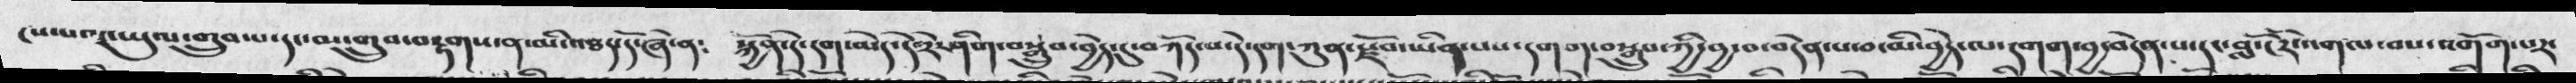ངས་པའང་ཡུལ་གྲུབ་པ་དང་མ་གྲུབ་བརྟགས་ན་མི་འཐད་དོ་ཞེ་ན༴  སྐྱོན་དེ་དག་མེད་དེ་སྟེ་ཤིག་བསྒྲུབ་བྱེད་དུ་བཀོད་པ་དེ་དག་ཀུན་རྫོབ་ཡིན་པས་དགག་བསྒྲུབ་ཀྱི་བྱ་བ་བདེན་པ་བ་མི་བྱེད་ལ་དགག་བྱ་བདེན་པ་དང་བློ་ངོར་འགལ་བས་འགོག་པར་
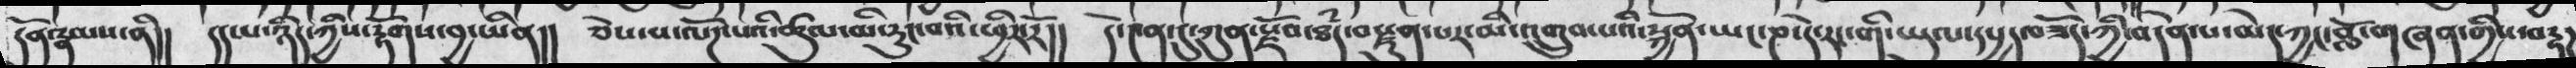དོན་རྣམས་ནི།།  དད་པ་ཉིད་ཀྱིས་རྟོགས་བྱ་ཡིན།།  ཅེས་པ་ལོཌ་པའི་ཚུལ་མི་རུང་བའི་ཕྱིར་རོ།།  དེ་༤ན་དུ་ཀུམ་རྫོབ་ཐཾད་བརྫུན་པར་མི་འགྲུབ་པའི་སྐྱོན་ཡང་ཎ་དེ་རང་གི་ཡུལ་དཔྱད་བཟོད་ཀྱི་བདེན་པ་མེད་ཀྱང་བློ་གཞན་གྱིས་བརྟཌ
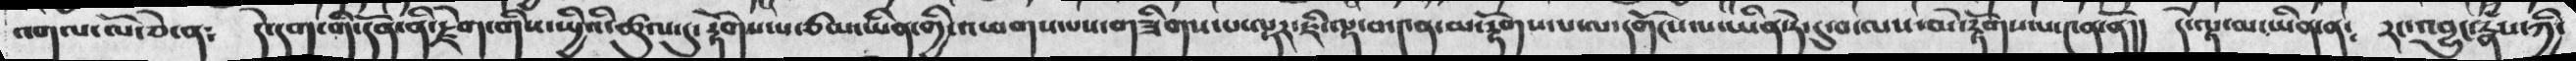འགལ་ལོ་ཅེ་ན༴  དེ་དག་གི་དོན་ནི་རྗོག་གིས་སྤྱིའི་ཚུལ་དུ་རྟོགས་པ་ཙམ་ཡིན་གྱི་འཕགས་པས་གཟིགས་པ་ལྟར་ཇི་ལྟ་བ་༤ན་མ་རྟོགས་པ་ལ་དགོངས་པ་ཡིན་དེ་དུ་བ་ལས་མེ་རྟོགས་པ་༤ན་ནོ།།  དེ་ལྟ་བ་མ་ཡིན་ན༴  རང་འབྱུང་རྣཾས་ཀྱི་
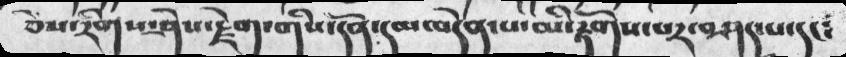ཅེས་རིགས་ཤེས་རྗེག་གིས་དོན་དམ་བདེན་པ་མི་རྟོགས་པར་བཤད་པ་དང༴
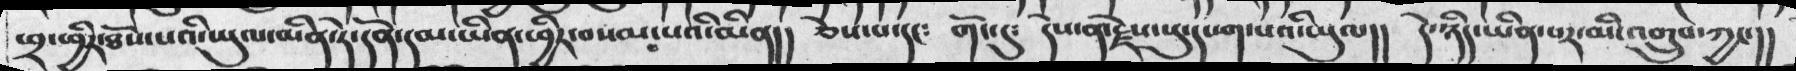ཕྲ་ཕྱིར་ཐོས་པའི་ཡུལ་མིན་ཏེ་དོན་དམ་ཡིན་ཕྱིར་བསམ་པའི་མིན།། ཅེས་པ་དང༴   གོང་དུ༴   དེས་ན་རྗེས་སུ་དཔག་པའི་ཡུལ།།  དེ་ཉིད་ཡིན་པར་མི་འགྲུབ་ཀྱང་།།
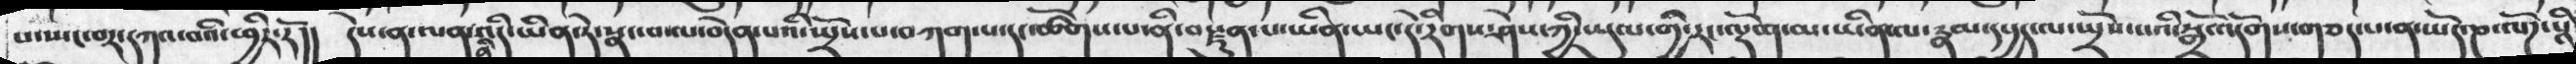པ་སྤང་བར་དཀའ་བའི་ཕྱིར་རོ།།  དེས་ན་ལན་ནི་འདི་ཡིན་ཏེ་སྣང་བ་ལ་བདེན་པའི་སྤྲོས་པ་བཀག་པ་དང་ཚོགས་པ་ནི་བརྫུན་པ་ཡིན་ཡང་དེ་རིགས་ཤེས་ཀྱི་ཡུལ་གྱི་རང་ལྡོག་མ་ཡིན་ལ་རྣམ་དཔྱད་ལ་སྤྲོས་པའི་སྒྲོ་འདོགས་གཅད་པ་ན་ཡོད་ཎ་ལོཌ་པའི
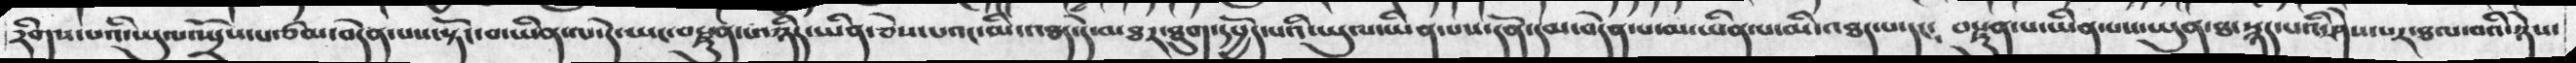རིགས་པའི་ཡུལ་སྤྲོས་པ་ཙམ་བདེན་པས་སྟོང་བ་ཡིན་ལ་དེ་ཡང་བརྫུན་པ་ཉིད་ཡིན་ཅེས་པའང་མི་འཐད་དེ་མཐར་ཐུག་དཔྱོད་པའི་ཡུལ་མིན་པས་དོན་དམ་བདེན་པ་མ་ཡིན་པ་མི་འཐད་པ་དང༴  བརྫུན་པ་ཡིན་པས་ཡུལ་ཐ་སྙད་པའི་ཤེས་པར་ཐལ་བའི་ཉེས་
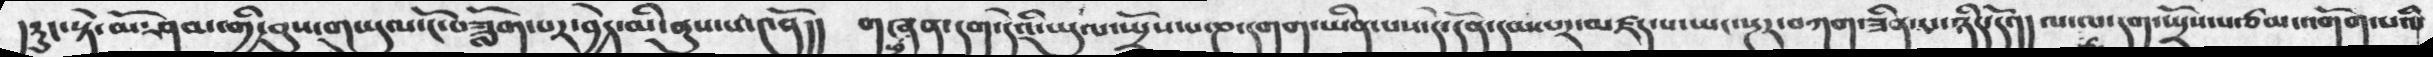།རུང་སྟ་མོ་ཤམ་གྱི་བུས་གཡུལ་ངོ་བཟློག་པར་བྱེད་མི་ནུས་པ་༤ནོ།།  གཞན་དག་དེའི་ཡུལ་སྤྲོས་པ་ཎ་དགག་ཡིན་པས་དེ་དོན་དམ་པར་མཛད་པ་ཡང་སྔར་བཀག་ཟིན་པ་ཉིད་དོ་།།  ལ་ལ་དག་སྤྲོས་པ་ཙམ་འགོག་པའི་
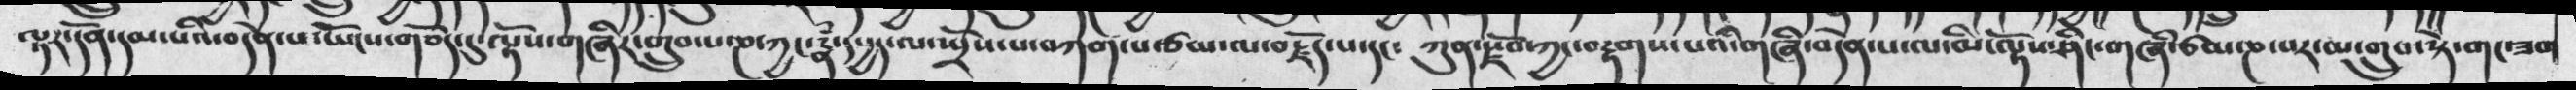ལྟར་དོན་དམ་པའི་བདེན་པ་ཡོངས་གཅོད་དུ་ལྟོས་གཞིར་གྲུབ་པ་ཎ་ཀྱང་རྣཾ་དཔྱད་ལ་སྤྲོས་པ་བཀག་ཙམ་ལ་བརྗོད་པ་དང༴  ཀུན་རྫོབ་ཀྱང་བརྟགས་པའི་གཞི་བདེན་པ་ལ་མི་ལྟོས་ཤིང་གཞི་ཙམ་ཎ་པར་མ་གྲུབ་སྟེ་གང་ཟག
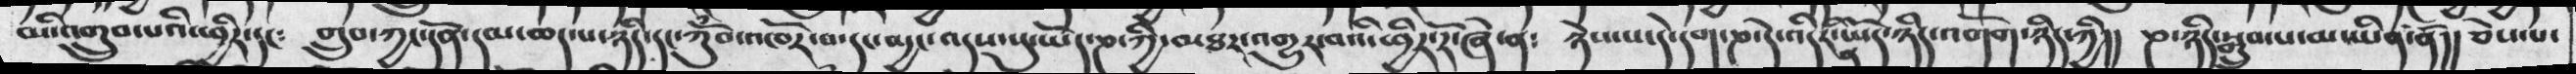མི་འགྲུབ་པའི་ཕྱིར་དང༴   གྲུབ་ཀྱང་དོན་དམ་ཆད་པ་ཉིད་དང་ཀོུཾབ་འཁོར་བ་དང་མྱང་འདས་སུ་ཡོད་ཎ་ཀྱི་མཐར་འགྱུར་བའི་ཕྱིར་རོ་ཞེ་ན༴   ཉེས་པ་དེ་དག་ཎ་དེ་འདིར་ནི་ཡོད་ཉིད་འགོག་ཉིད་ཀྱི།།  ཎ་ཉིད་སྒྲུབ་པ་མ་ཡིན་ནོ།།  ཅེས་པ་
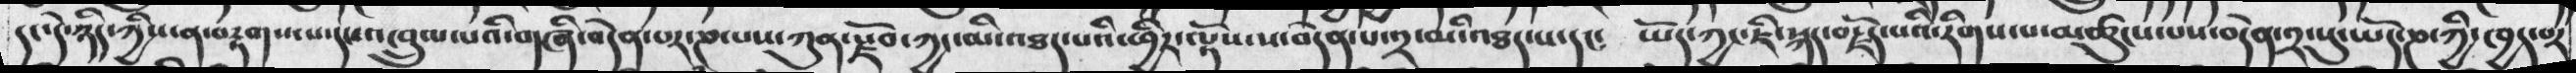དང་དེ་ཉིད་ཀྱིས་ན་བརྟགས་པ་དང་འཁྲུམ་པའི་གཞི་བདེན་པར་ཎ་པས་ཀུན་རྫོབ་ཀྱང་མི་འཐད་པའི་ཕྱིར་ལྟོས་པ་བདེན་པ་༢་མི་འཐད་པ་དང༴  ཡོད་ཀྱང་ཇི་སྐད་བརྗོད་པའི་རིགས་པ་མཚུངས་པས་བདེན་༢་སུ་ཡོད་ཎ་ཀྱི་ཁྱད་པར
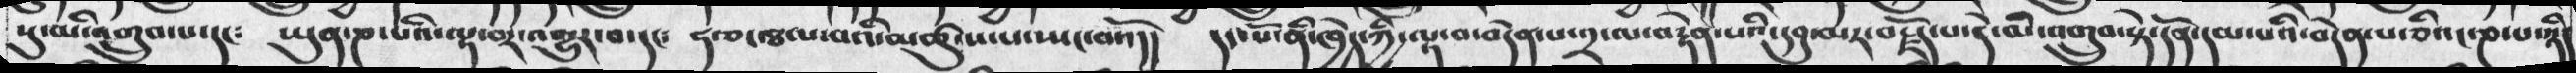སུ་མི་འགྲུབ་པ་དང༴ ཡུན་ཎ་པའི་ལྟ་བར་འགྱུར་བ་དང༴ ཧ་ཅང་ཐལ་བའི་མཚུངས་པ་ཡང་བའོ།།  དང་པོ་ནི་ཁྱེད་ཀྱི་ལྟ་བ་བདེན་པ་༢་ལ་བརྟེན་པའི་དབུ་མར་བརྗོད་པ་དེ་མི་འགྲུབ་སྟེ་དོན་དམ་པའི་བདེན་པ་ཅིའང་ཎ་པ་ཉི།
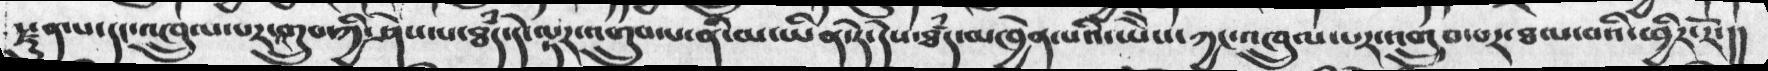རྫུན་པ་དང་འཁྲུལ་པར་འགྲུབ་ཀྱི་ཤེས་པ་ཐཾད་དེ་ལྟར་འགྲུབ་པ་ནི་མ་ཡིན་ཏེ་དེས་ཐཾད་མཁྱེན་པའི་ཡེེས་ཀྱང་འཁྲུལ་པར་འགྲུབ་པར་ཐལ་བའི་ཕྱིར་རོ་།།
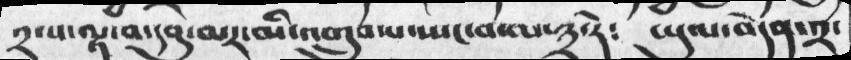༢་པ་ལྟ་བ་དབུ་མར་མི་འགྲུབ་པ་སྤང་བ་ལ་༣་དེ༴ ཡུལ་བདེན་༢་
